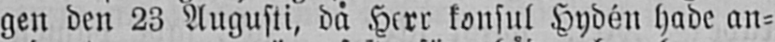gen den 23 Augusti, då Herr konsul Hydén hade an-
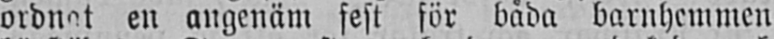ordnat en angenäm fest för båda barnhemmen
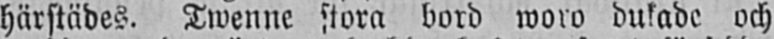härstädes. Twenne stora bord woro dukade och
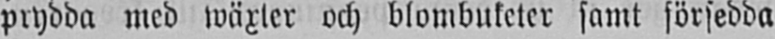prydda med wäxter och blombuketer samt försedda
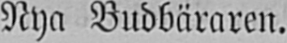Nya Budbäraren.
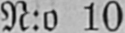N:o 10.
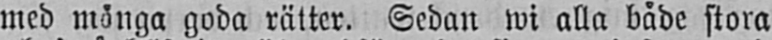med många goda rätter. Sedan wi alla både stora
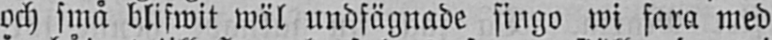och små blifwit wäl undfägnade fingo wi fara med
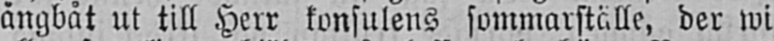ångbåt ut till Herr konsulens sommarställe, der wi
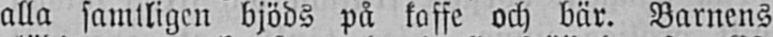alla samtligen bjöds på kaffe och bär. Barnens
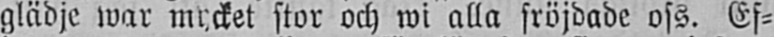glädje war mycket stor och wi alla fröjdade oss. Ef-
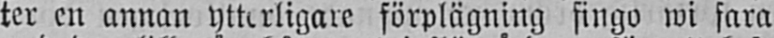ter en annan ytterligare förplägning fingo wi fara
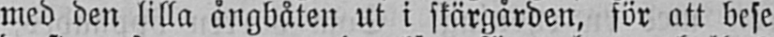med den lilla ångbåten ut i skärgården, för att bese
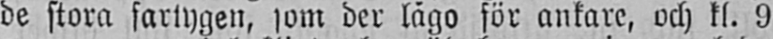de stora fartygen, som der lågo för ankare, och kl. 9
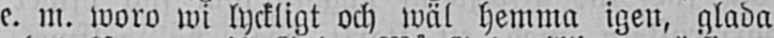e. m. woro wi lyckligt och wäl hemma igen, glada
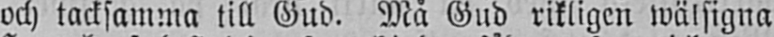och tacksamma till Gud. Må Gud rikligen wälsigna
